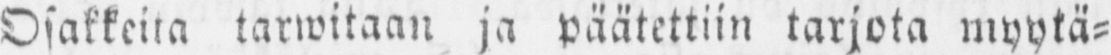Osakkeita tarwitaan ja päätettiin tarjota myytä-
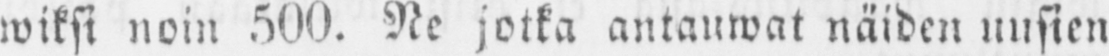wiksi noin 500. Ne jotka antauwat näiden uusien
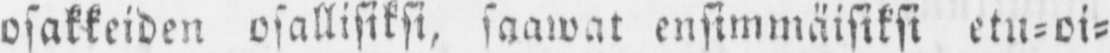osakkeiden osallisiksi, saawat ensimmäisiksi etu-oi-
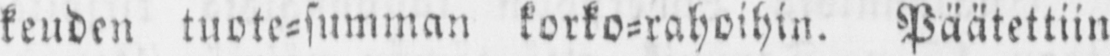keuden tuote-summan korko-rahoihin. Päätettiin
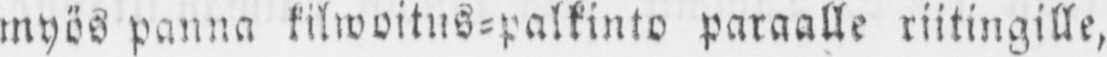myös panna kilwoitus-palkinto paraalle riitingille,
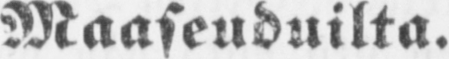Maaseuduilta.
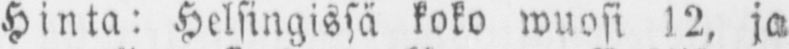Hinta: Helsingissä koko wuosi l2, ja
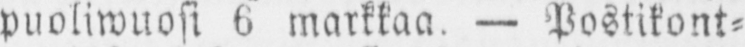puoliwuosi 6 markkaa. — Postikont-
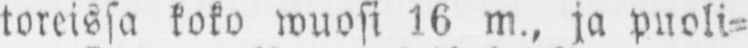toreissa koko wuosi 16 m, ja puoli-
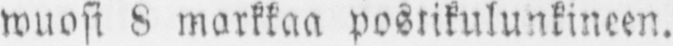wuosi 8 markkaa postikulunkineen.
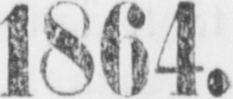1864.
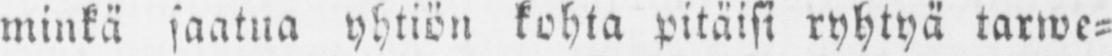minkä saatua yhtiön kohta pitäisi ryhtyä tarwe-
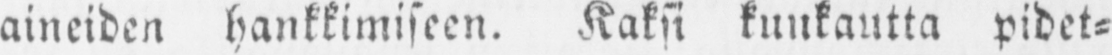aineiden hankkimiseen. Kaksi kuukautta pidet-
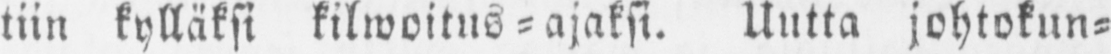tiin kylläksi kilwoitus-ajaksi. Uutta johtokun-
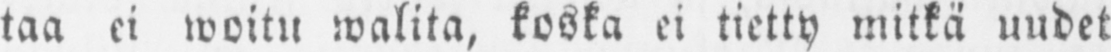taa ei woitu walita, koska ei tietty mitkä undet
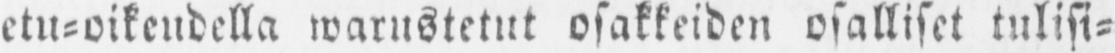etu-oikeudella warustetut osakkeiden osalliset tulisi-
